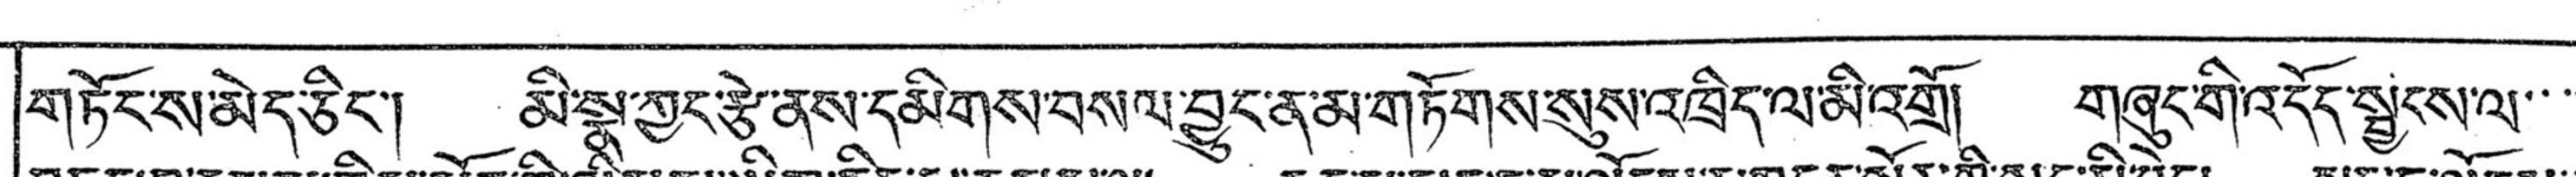གཏོངས་མེད་ཅིང་། མི་སྣ་ཀྱང་རྩེ་ནས་དམིགས་བསལ་བྱུང་ན་མ་གཏོགས་སུས་འཁྲིད་ལ་མི་འགྲོ། གཞུང་གི་འདོད་སྤྱངས་ལ་་་་
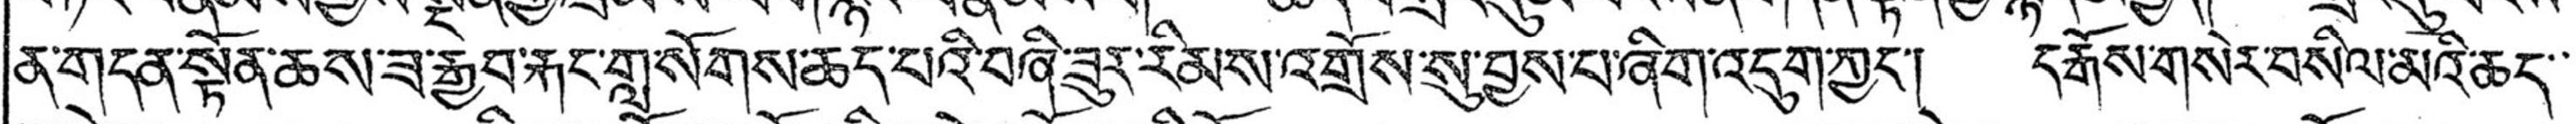ན་གདན་སྟོན་ཆས་ཟ་རྒྱབ་རྐང་གླ་སོགས་ཆད་པའི་བཞི་ཟུར་རིམས་འགྲོས་སུ་བྱས་པ་ཞིག་འདུག་ཀྱང་། དརྒོས་གསེར་བསིལ་མའི་ཆད་་་
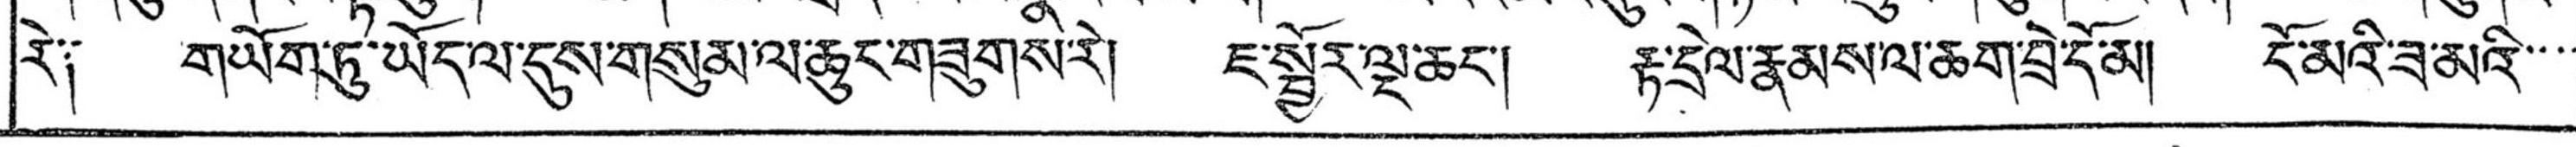རེ༑ གཡོག་ཏུ་ཡོད་ལ་དུས་གསུམ་ལ་ཆུང་གཟུགས་རེ། ཇ་སྦྱོར་ལྔ་ཆང་། རྟ་དྲེལ་རྣམས་ལ་ཆག་བྲེ་དོ་མ། ངོ་མའི་ཟ་མའི་་་་
